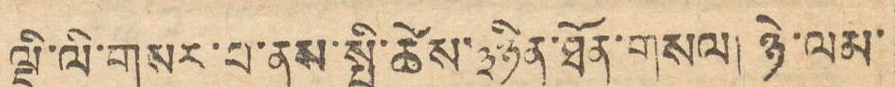ལྡི་ལི་གསར་པ་ནས་སྤྱི་ཚེས་༣ཉིན་ཐོན་གསལ། ཉེ་ལམ་
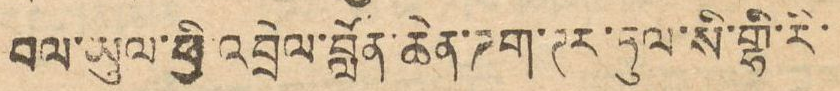བལ་ཡུལ་ཕྱི་འབྲེལ་བློན་ཆེན་ཌག་ཊར་ཏུལ་སི་གྷི་རི་
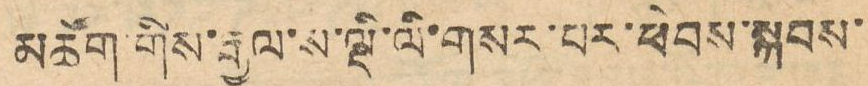མཚོག་གིས་རྒྱལ་ས་ལྡི་ལི་གསར་པར་ཕེབས་སྐབས་
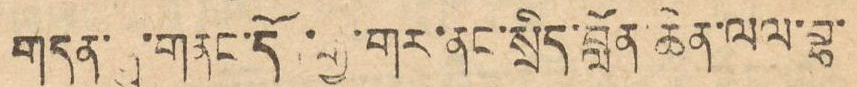གདན་ཞུ་གནང་དོན་རྒྱ་གར་ནང་སྲིད་བློན་ཆེན་ལལ་བྷ་
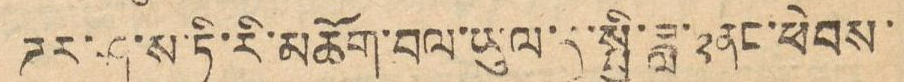ཌུར་ཤ་ས་ཏི་རི་མཆོག་བལ་ཡུལ་དུ་སྤྱི་ཟླ་༢ནང་ཕེབས་
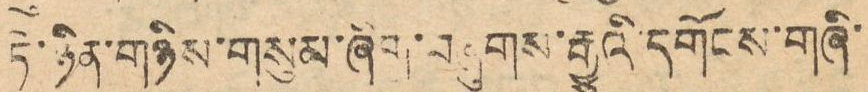ཏེ་ཉིན་གཉིས་གསུམ་ཞིག་བཞུགས་རྒྱུའི་དགོངས་གཞི་
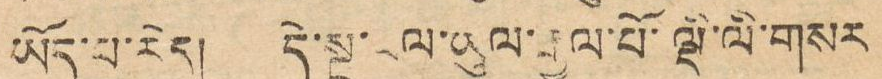ཡོད་པ་རེད། དེ་སྔ་བལ་ཡུལ་རྒྱལ་པོ་ལྡི་ལི་གསར
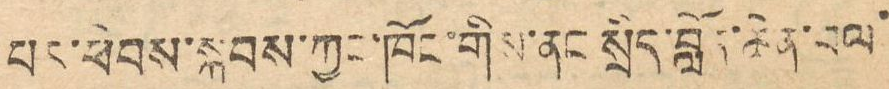པར་ཕེབས་སྐབས་ཀྱང་ཁོང་གིས་ནང སྲིད་བློན་ཆེན་བལ་
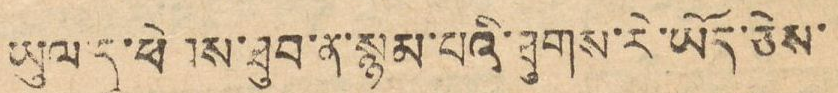ཡུལ་དུ་ཕེབས་ཐུབ་ན་སྙམ་པའི་ཐུགས་རེ་ཡོད་ཅེས
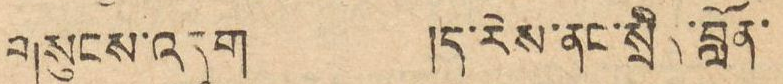གསུངས་འདུག །ད་རེས་ནང་སྲིད་བློན་
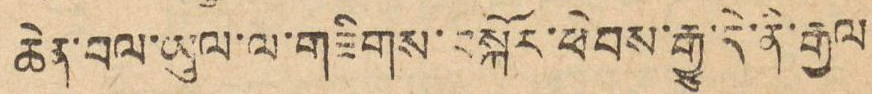ཆེན་བལ་ཡུལ་ལ་གཟིགས་བསྐོར་ཕེབས་རྒྱུ་དེ་ནི་རྒྱལ
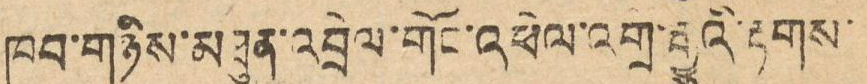ཁབ་གཉིས་མཐུན་འབྲེལ་གོང་འཕེལ་འགྲ་རྒྱུའི་རྟགས་
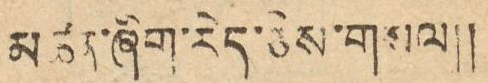མཚན་ཞིག་རེད་ཅེས་གསལ།།
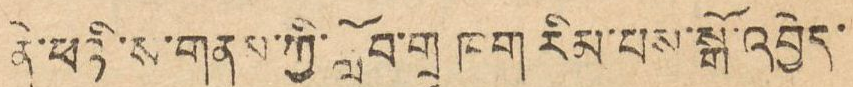ནེ་ཕའི་ས་གནས་ཀྱི་སློབ་གྲྭ ཁག རིམ་པས་སྒོ་འབྱེད་
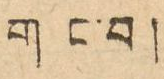ག ང་བ།
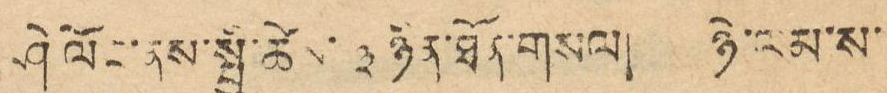ཤེ ལོང་ནས་སྤྱི་ཚེས་ ༣ ཉིན་ཐོན་གསལ། ཉེ་ལམ་ས་
